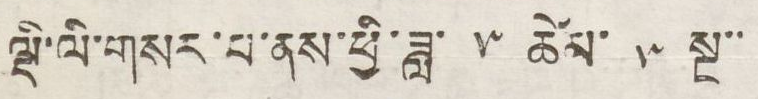ལྡི་ལི་གསར་པ་ནས་ཕྱི་ཟླ་ ༥ ཚེམ་ ༥༥ སྔ་་
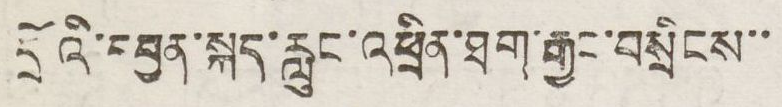དྲོའི་དབུན་སྐད་རླུང་འཕྲིན་ཐག་རྒྱང་བསྲིངས་་
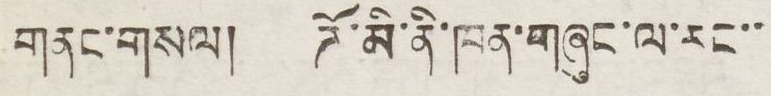གནང་གསལ། ཌོ་མི་ནི་ཁན་གཞུང་ལ་རང་་
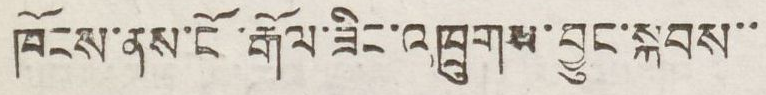ཁོངས་ནས་ངོ་རྒོལ་ཟིང་འཁྲུགས་བྱུང་སྐབས་་
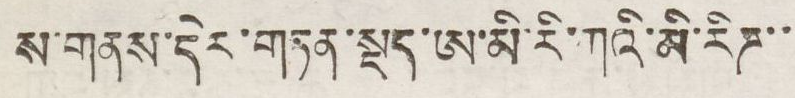ས་གནས་དེར་གཏན་སྡད་ཨ་མི་རི་ཀའི་མི་རིཊ་་
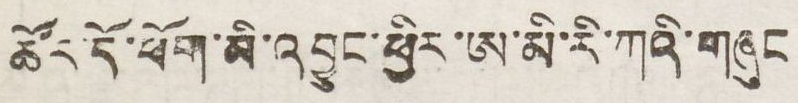ཚོར་དོ་ཕོག་མི་འབྱུང་ཕྱིར་ཨ་མི་རི་ཀའི་གཞུང
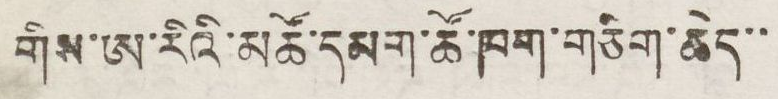གིས་ཨ་རིའི་མཚོ་དམག་ཚོ་ཁག་གཅིག་ཆེད་་
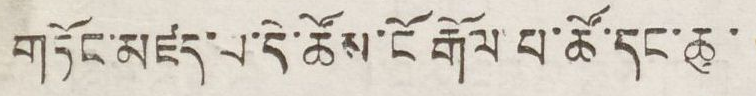གཏོང་མཛད་པ་དེ་ཚོས་ངོ རྒོལ་པ་ཚོ་དང་ཆུ་
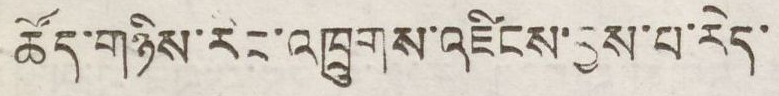ཚོད་གཉིས་རིང་འཁྲུགས་འཛིངས་བྱས་པ་རེད་
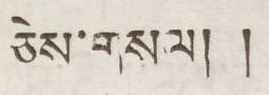ཅེས་གསལ། །
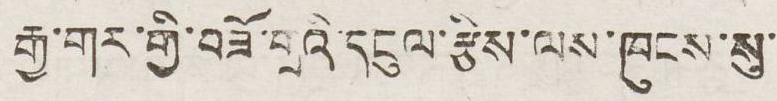རྒྱ་གར་གྱི་བཟོ་གྲྭའི་དངུལ་རྩིས་ལས་ཁུངས་སུ་
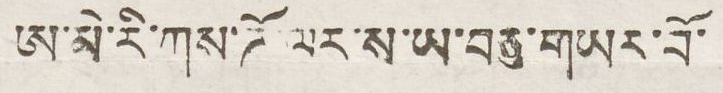ཨ་མེ་རི་ཀས་ཌོ་ལར་ས་ཡ་བཅུ་གཡར་པོ་
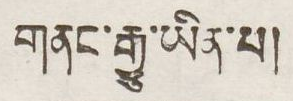གནང་རྒྱུ་ཡིན་པ།
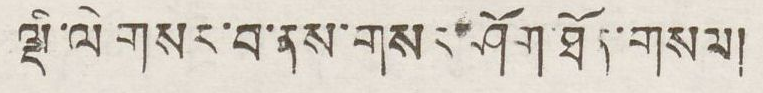ལྡི་ལེ་གསར་བ་ནས་གསར་ཤོག་ཐོན་གསལ།
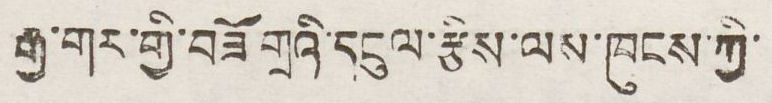རྒྱ་གར་གྱི་བཟོ་གྲའི་དངུལ་རྩིས་ལས་ཁུངས་ཀྱི་
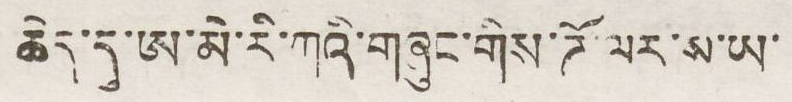ཆེད་དུ་ཨ་མེ་རི་ཀའི་གཞུང་གིས་ཌོ་ལར་ས་ཡ་
